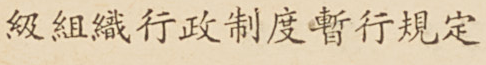級組織行政制度暫行規定
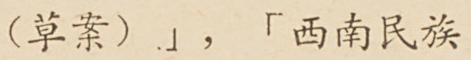（草案）」，「西南民族
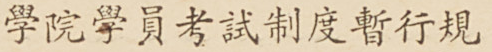學院學員攷試制度暫行規
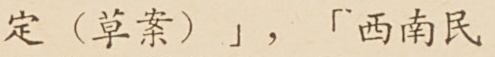定（草案）」，「西南民
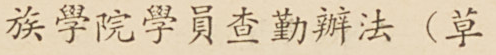族學院學員查勤辦法（草
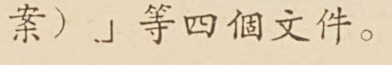案）」等四個文件。
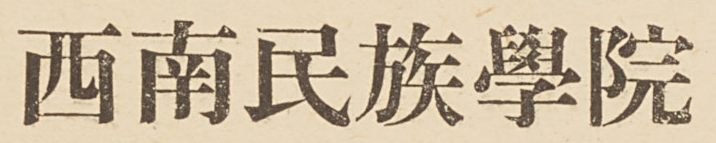西南民族學院
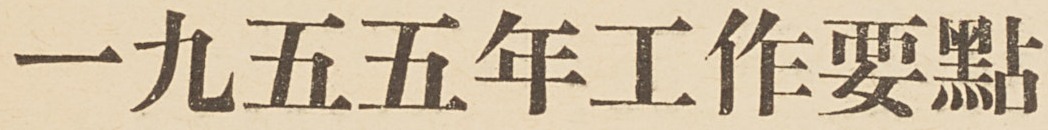一九五五年工作要點
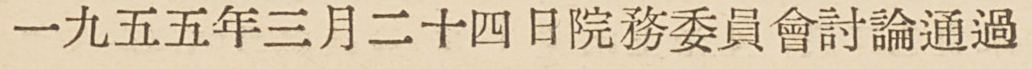一九五五年三月二十四日院務委員會討論通過
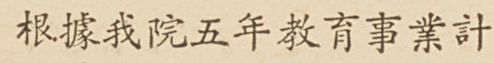根據我院五念教育事業計
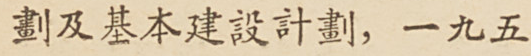劃及基本建設計劃，一九五
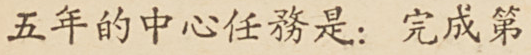五年的中心任務是：完成第
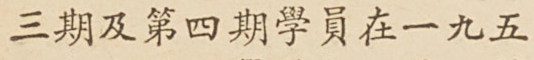三期及第四期學員在一九五
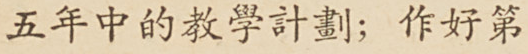五年中的教學計劃；作好第
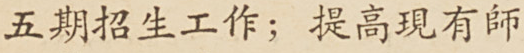五期招生工作；提高現有師
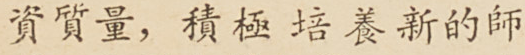資質量，積極培養新的師
